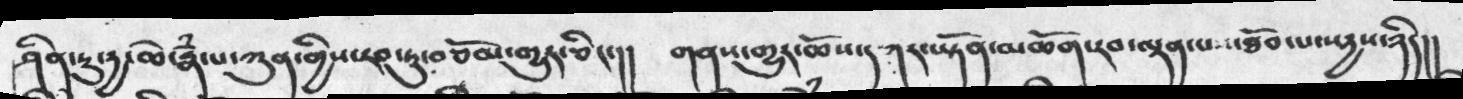ཤིན་ཏུ་དྱ་ཆེ་རྣཾ་པ་ཀུན་གྱིས་རབ་ཏུ་བཅོམ་གྱུར་ཅིང་།།  གནས་གྱུར་ཆོས་དཀར་ཡྟོན་མཆོག་རབ་ལྡན་པས་ཐོབ་པ་སདྱས་ཉིད།།
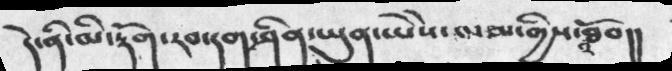དེ་ནི་མི་རྟོག་རབ་དག་ཤིན་ཡུན་ཡེེས་ལམ་གྱིས་འཐོབ།།
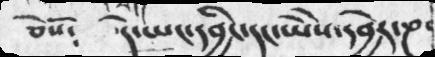ཅེསོ༴  དེ་ཡང་དབྱིང་དང་ཡེེས་དབྱེར་ཎ་
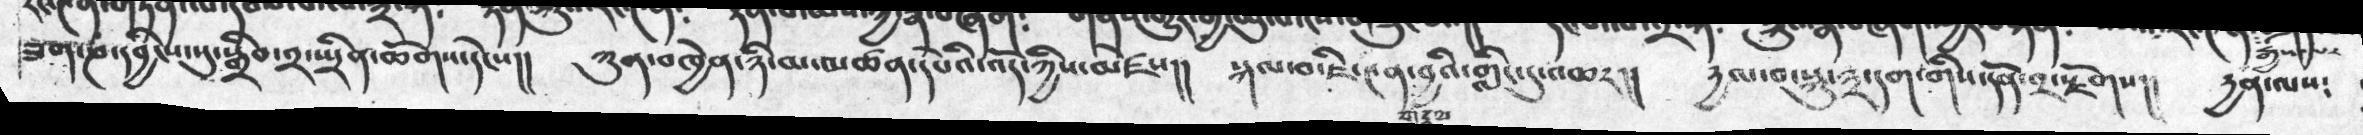ཟག་ཎ་དབྱིངས་སུ་སྒྲིབ་༢་སྤྲིན་ཆོགས་དེངས།།  ཀུན་མཁྱེན་ཉི་མ་མཚན་དཔེའི་འོད་ཀྱིས་མཛེས།།   སྐལ་བ་ཇི་༤ན་གདུལ་བྱའི་གླིང་དུ་འཆར།།  དྱལ་བ་སྐུ་༣་དག་གིས་དོན་༢་རྫོགས།།  དྱན་ལས༴
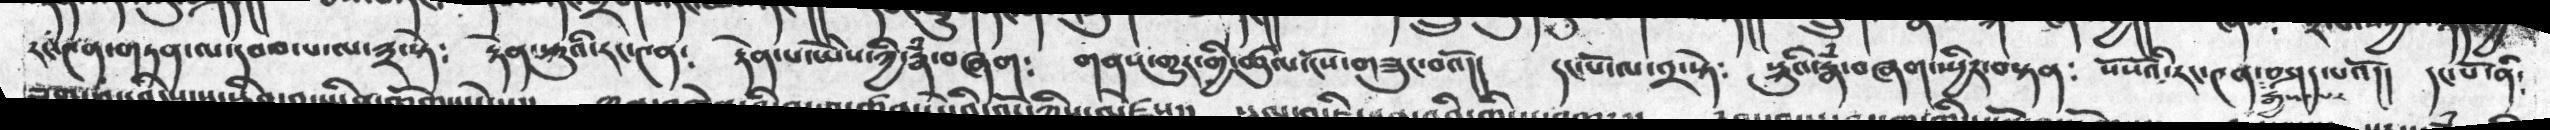རང་༤ན་གཏན་ལ་དབབ་པ་ལ་༣་སྟེ༴   རྟེན་སྐུའི་རང་༤ན༴  རྟེན་པ་ཡེེས་ཀྱི་རྣཾ་བཞག༴  གནས་གྱུར་གྱི་ཚུལ་ངོས་གཟུང་བའོ།།  དང་པོ་ལ་༢་སྟེ༴  སྐུའི་རྣཾ་བཞག་སྤྱིར་བསྟན༴   སོ་སོའི་རང་༤ན་རྒྱས་པར་བཤད་པའོ།།  དང་པོ་ནི་
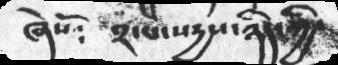ཞེསོ༴   ༢་པ་སདྱས་ཉིད་ཀྱི་
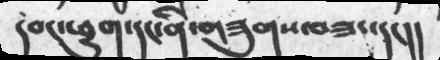དབང་ཕྱུག་དང་ནི་གཟུགས་བཟང་དང།།
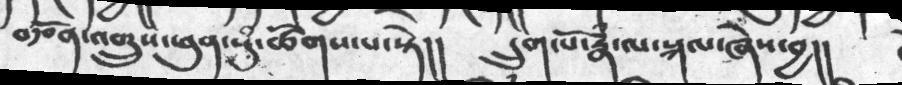བརྩོན་འགྲུས་ཕུན་སུཾ་ཚོགས་པ་སྟེ།།  དྲུག་པོ་རྣཾ་ལ་སྐལ་ཞེས་བྱ།།
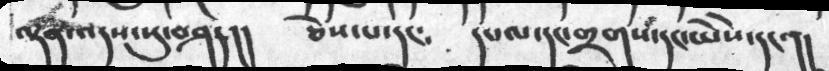ལྡན་འདས་སུ་བཤད།།  ཅེས་པ་དང༴  དཔལ་དང་གྲགས་དང་ཡཻས་དང་།།
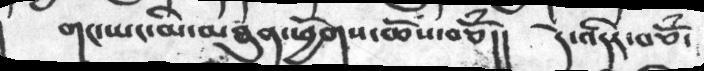གང་ཡང་མི་མཐུན་ཕྱོགས་ཆོས་བཅོཾ།།  དེ་འདིར་བཅོཾ་
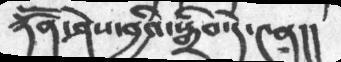ཉོོན་ཤེས་བྱའི་སྒྲིབ་དེ་༤ན།།
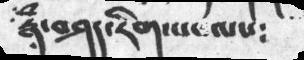རྣཾ་བཤད་རིག་པ་ལས༴
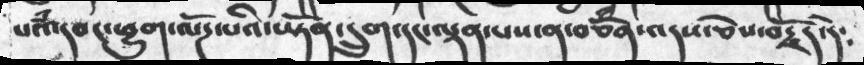པའཾ་དབང་ཕྱུག་ལོཌ་པའི་ཡྟོན་དྲུག་དང་ལྡན་པས་ན་བཅོཾན་འདས་ཅེས་བརྗོད་དེ༴
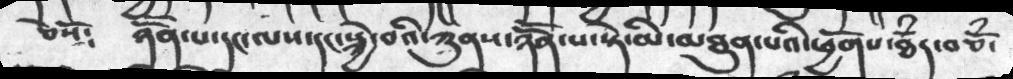ཅེས༴  ཉོོན་པ་དང་ལས་དང་སྐྱེ་བའི་ཀུནས་ཉོོན་པ་སྟེ་མི་མཐུན་པའི་ཕྱོགས་ཐཾད་བཅོཾ་
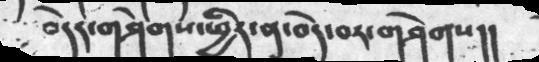བདེར་བཤེགས་ཕྱིར་ན་བདེ་བར་གཤེགས།།
